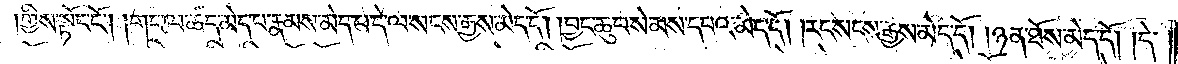གྱིས་སྟོང་ངོ༌། །གང་ལ་ཚད་མེད་པ་རྣམས་མེད་པ་དེ་ལ་སངས་རྒྱས་མེད་དོ། །བྱང་ཆུབ་སེམས་དཔའ་མེད་དོ། །རང་སངས་རྒྱས་མེད་དོ། །ཉན་ཐོས་མེད་དོ། །དེ་
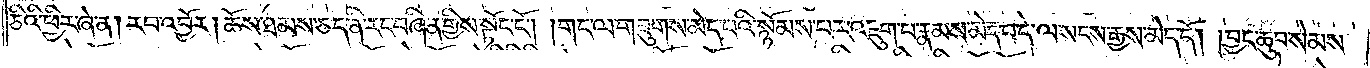ཅིའི་ཕྱིར་ཞེ་ན། རབ་འབྱོར། ཆོས་ཐམས་ཅད་ནི་རང་བཞིན་གྱིས་སྟོང་ངོ༌༎གང་ལ་གཟུགས་མེད་པའི་སྙོམས་པར་འཇུག་པ་རྣམས་མེད་པ་དེ་ལ་སངས་རྒྱས་མེད་དོ། །བྱང་ཆུབ་སེམས་
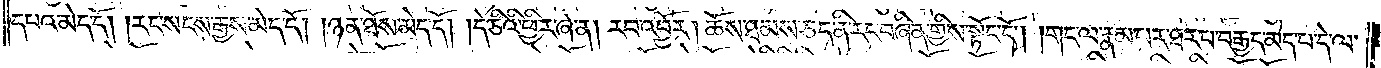དཔའ་མེད་དོ། །རང་སངས་རྒྱས་མེད་དོ། །ཉན་ཐོས་མེད་དོ། །དེ་ཅིའི་ཕྱིར་ཞེ་ན། རབ་འབྱོར། ཆོས་ཐམས་ཅད་ནི་རང་བཞིན་གྱིས་སྟོང་ངོ༌། །གང་ལ་རྣམ་པར་ཐར་པ་བརྒྱད་མེད་པ་དེ་ལ་
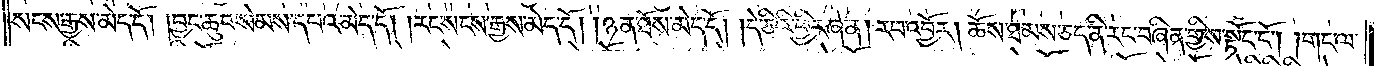སངས་རྒྱས་མེད་དོ། །བྱང་ཆུབ་སེམས་དཔའ་མེད་དོ། །རང་སངས་རྒྱས་མེད་དོ། །ཉན་ཐོས་མེད་དོ། །དེ་ཅིའི་ཕྱིར་ཞེ་ན། རབ་འབྱོར། ཆོས་ཐམས་ཅད་ནི་རང་བཞིན་གྱིས་སྟོང་ངོ༌། །གང་ལ་
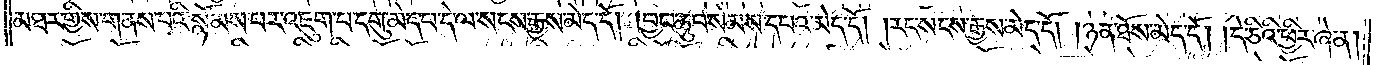མཐར་གྱིས་གནས་པའི་སྙོམས་པར་འཇུག་པ་དགུ་མེད་པ་དེ་ལ་སངས་རྒྱས་མེད་དོ། །བྱང་ཆུབ་སེམས་དཔའ་མེད་དོ། །རང་སངས་རྒྱས་མེད་དོ། །ཉན་ཐོས་མེད་དོ། །དེ་ཅིའི་ཕྱིར་ཞེ་ན།
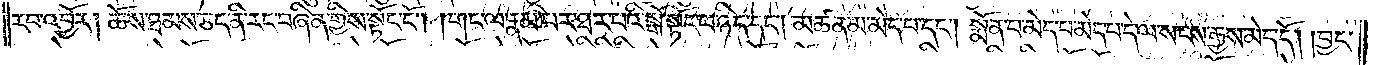རབ་འབྱོར། ཆོས་ཐམས་ཅད་ནི་རང་བཞིན་གྱིས་སྟོང་ངོ༌། །གང་ལ་རྣམ་པར་ཐར་པའི་སྒོ་སྟོང་པ་ཉིད་དང༌། མཚན་མ་མེད་པ་དང༌། སྨོན་པ་མེད་པ་མེད་པ་དེ་ལ་སངས་རྒྱས་མེད་དོ། །བྱང་
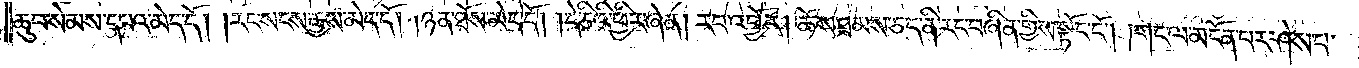ཆུབ་སེམས་དཔའ་མེད་དོ། །རང་སངས་རྒྱས་མེད་དོ། །ཉན་ཐོས་མེད་དོ། །དེ་ཅིའི་ཕྱིར་ཞེ་ན། རབ་འབྱོར། ཆོས་ཐམས་ཅད་ནི་རང་བཞིན་གྱིས་སྟོང་ངོ༌། །གང་ལ་མངོན་པར་ཤེས་པ་
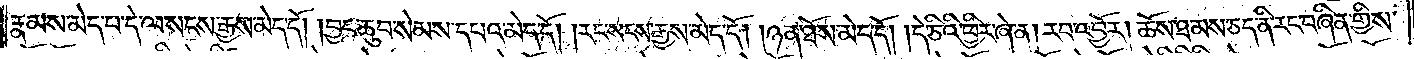རྣམས་མེད་པ་དེ་ལ་སངས་རྒྱས་མེད་དོ། །བྱང་ཆུབ་སེམས་དཔའ་མེད་དོ། །རང་སངས་རྒྱས་མེད་དོ། །ཉན་ཐོས་མེད་དོ། །དེ་ཅིའི་ཕྱིར་ཞེ་ན། རབ་འབྱོར། ཆོས་ཐམས་ཅད་ནི་རང་བཞིན་གྱིས་
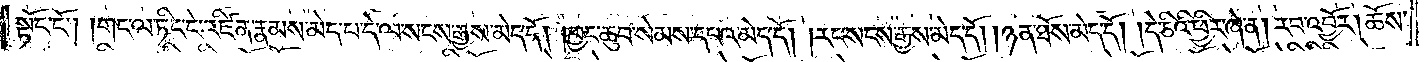སྟོང་ངོ༌། །གང་ལ་ཏིང་ངེ་འཛིན་རྣམས་མེད་པ་དེ་ལ་སངས་རྒྱས་མེད་དོ། །བྱང་ཆུབ་སེམས་དཔའ་མེད་དོ། །རང་སངས་རྒྱས་མེད་དོ། །ཉན་ཐོས་མེད་དོ། །དེ་ཅིའི་ཕྱིར་ཞེ་ན། རབ་འབྱོར། ཆོས་
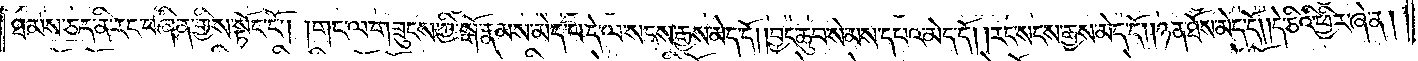ཐམས་ཅད་ནི་རང་བཞིན་གྱིས་སྟོང་ངོ༌། །གང་ལ་གཟུངས་ཀྱི་སྒོ་རྣམས་མེད་པ་དེ་ལ་སངས་རྒྱས་མེད་དོ། །བྱང་ཆུབ་སེམས་དཔའ་མེད་དོ། །རང་སངས་རྒྱས་མེད་དོ། །ཉན་ཐོས་མེད་དོ། །དེ་ཅིའི་ཕྱིར་ཞེ་ན།
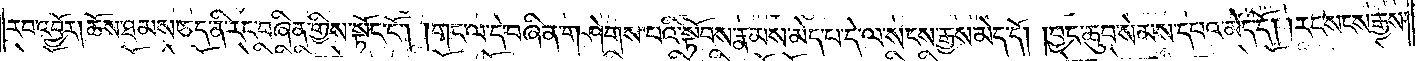རབ་འབྱོར། ཆོས་ཐམས་ཅད་ནི་རང་བཞིན་གྱིས་སྟོང་ངོ༌། །གང་ལ་དེ་བཞིན་གཤེགས་པའི་སྟོབས་རྣམས་མེད་པ་དེ་ལ་སངས་རྒྱས་མེད་དོ། །བྱང་ཆུབ་སེམས་དཔའ་མེད་དོ། །རང་སངས་རྒྱས་
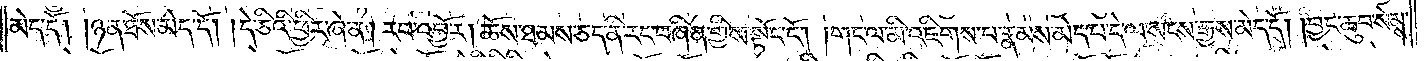མེད་དོ། །ཉན་ཐོས་མེད་དོ། །དེ་ཅིའི་ཕྱིར་ཞེ་ན། རབ་འབྱོར། ཆོས་ཐམས་ཅད་ནི་རང་བཞིན་གྱིས་སྟོང་ངོ༌། །གང་ལ་མི་འཇིགས་པ་རྣམས་མེད་པ་དེ་ལ་སངས་རྒྱས་མེད་དོ། །བྱང་ཆུབ་སེམས་
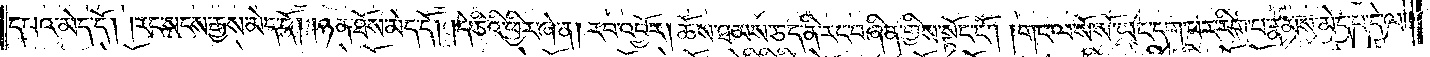དཔའ་མེད་དོ། །རང་སངས་རྒྱས་མེད་དོ། །ཉན་ཐོས་མེད་དོ། །དེ་ཅིའི་ཕྱིར་ཞེ་ན། རབ་འབྱོར། ཆོས་ཐམས་ཅད་ནི་རང་བཞིན་གྱིས་སྟོང་ངོ༌། །གང་ལ་སོ་སོ་ཡང་དག་པར་རིག་པ་རྣམས་མེད་པ་དེ་ལ་
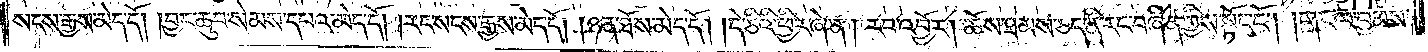སངས་རྒྱས་མེད་དོ། །བྱང་ཆུབ་སེམས་དཔའ་མེད་དོ། །རང་སངས་རྒྱས་མེད་དོ། །ཉན་ཐོས་མེད་དོ། །དེ་ཅིའི་ཕྱིར་ཞེ་ན། རབ་འབྱོར། ཆོས་ཐམས་ཅད་ནི་རང་བཞིན་གྱིས་སྟོང་ངོ༌། །གང་ལ་བྱམས་
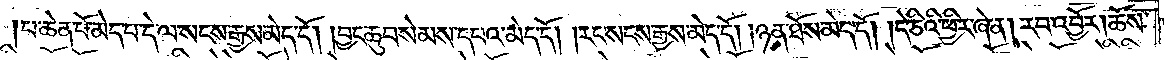པ་ཆེན་པོ་མེད་པ་དེ་ལ་སངས་རྒྱས་མེད་དོ། །བྱང་ཆུབ་སེམས་དཔའ་མེད་དོ། །རང་སངས་རྒྱས་མེད་དོ། །ཉན་ཐོས་མེད་དོ། །དེ་ཅིའི་ཕྱིར་ཞེ་ན། རབ་འབྱོར། ཆོས་
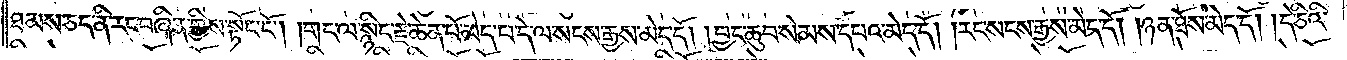ཐམས་ཅད་ནི་རང་བཞིན་གྱིས་སྟོང་ངོ༌། གང་ལ་སྙིང་རྗེ་ཆེན་པོ་མེད་པ་དེ་ལ་སངས་རྒྱས་མེད་དོ། །བྱང་ཆུབ་སེམས་དཔའ་མེད་དོ། །རང་སངས་རྒྱས་མེད་དོ། །ཉན་ཐོས་མེད་དོ། །དེ་ཅིའི་
